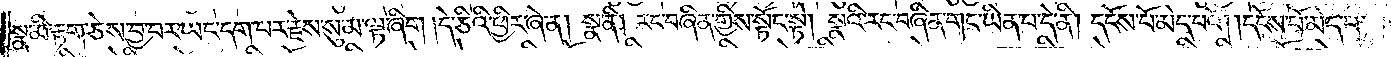སྣ་མི་རྟག་ཅེས་བྱ་བར་ཡང་དག་པར་རྗེས་སུ་མ་ལྟ་ཞིག །དེ་ཅིའི་ཕྱིར་ཞེ་ན། སྣ་ནི། རང་བཞིན་གྱིས་སྟོང་སྟེ། སྣའི་རང་བཞིན་གང་ཡིན་པ་དེ་ནི། དངོས་པོ་མེད་པའོ། །དངོས་པོ་མེད་པ་
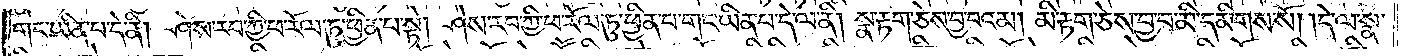གང་ཡིན་པ་དེ་ནི། ཤེས་རབ་ཀྱི་ཕ་རོལ་ཏུ་ཕྱིན་པ་སྟེ། ཤེས་རབ་ཀྱི་ཕ་རོལ་ཏུ་ཕྱིན་པ་གང་ཡིན་པ་དེ་ལ་ནི། སྣ་རྟག་ཅེས་བྱ་བའམ། མི་རྟག་ཅེས་བྱ་བ་མི་དམིགས་སོ། །དེ་ལ་སྣ་
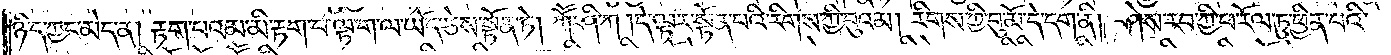ཉིད་ཀྱང་མེད་ན། རྟག་པའམ་མི་རྟག་པ་ལྟ་ག་ལ་ཡོད་ཅེས་སྟོན་ཏེ། ཀཽ་ཤི་ཀ། དེ་ལྟར་སྟོན་པའི་རིགས་ཀྱི་བུའམ། རིགས་ཀྱི་བུ་མོ་དེ་དག་ནི། ཤེས་རབ་ཀྱི་ཕ་རོལ་ཏུ་ཕྱིན་པའི་
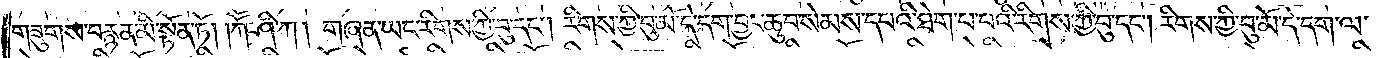གཟུགས་བརྙན་མི་སྟོན་ཏོ། །ཀཽ་ཤི་ཀ། གཞན་ཡང་རིགས་ཀྱི་བུ་དང༌། རིགས་ཀྱི་བུ་མོ་དེ་དག་བྱང་ཆུབ་སེམས་དཔའི་ཐེག་པ་པའི་རིགས་ཀྱི་བུ་དང༌། རིགས་ཀྱི་བུ་མོ་དེ་དག་ལ་
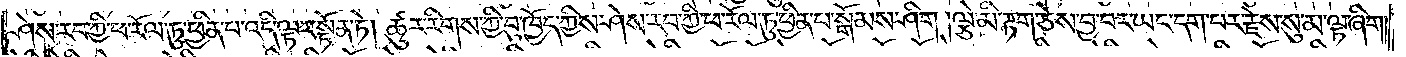ཤེས་རབ་ཀྱི་ཕ་རོལ་ཏུ་ཕྱིན་པ་འདི་ལྟར་སྟོན་ཏེ། ཚུར་རིགས་ཀྱི་བུ་ཁྱོད་ཀྱིས་ཤེས་རབ་ཀྱི་ཕ་རོལ་ཏུ་ཕྱིན་པ་སྒོམས་ཤིག །ལྕེ་མི་རྟག་ཅེས་བྱ་བར་ཡང་དག་པར་རྗེས་སུ་མ་ལྟ་ཞིག།
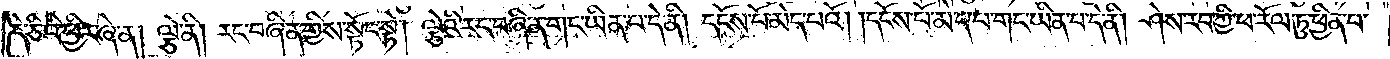དེ་ཅིའི་ཕྱིར་ཞེ་ན། ལྕེ་ནི། རང་བཞིན་གྱིས་སྟོང་སྟེ། ལྕེའི་རང་བཞིན་གང་ཡིན་པ་དེ་ནི། དངོས་པོ་མེད་པའོ། །དངོས་པོ་མེད་པ་གང་ཡིན་པ་དེ་ནི། ཤེས་རབ་ཀྱི་ཕ་རོལ་ཏུ་ཕྱིན་པ་
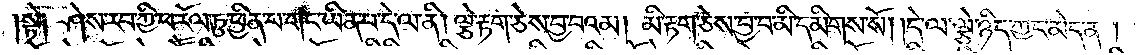སྟེ༑ ཤེས་རབ་ཀྱི་ཕ་རོལ་ཏུ་ཕྱིན་པ་གང་ཡིན་པ་དེ་ལ་ནི། ལྕེ་རྟག་ཅེས་བྱ་བའམ། མི་རྟག་ཅེས་བྱ་བ་མི་དམིགས་སོ། །དེ་ལ་ལྕེ་ཉིད་ཀྱང་མེད་ན།
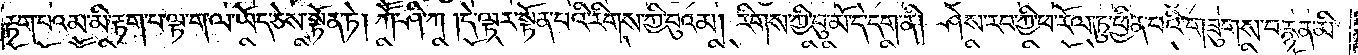རྟག་པའམ་མི་རྟག་པ་ལྟ་ག་ལ་ཡོད་ཅེས་སྟོན་ཏེ། ཀཽ་ཤི་ཀ། དེ་ལྟར་སྟོན་པའི་རིགས་ཀྱི་བུའམ། རིགས་ཀྱི་བུ་མོ་དེ་དག་ནི། ཤེས་རབ་ཀྱི་ཕ་རོལ་ཏུ་ཕྱིན་པའི་གཟུགས་བརྙན་མི་
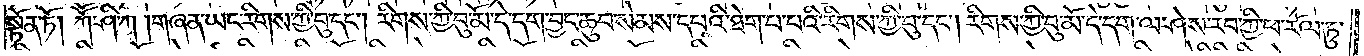སྟོན་ཏོ། །ཀཽ་ཤི་ཀ། གཞན་ཡང་རིགས་ཀྱི་བུ་དང༌། རིགས་ཀྱི་བུ་མོ་དེ་དག་བྱང་ཆུབ་སེམས་དཔའི་ཐེག་པ་པའི་རིགས་ཀྱི་བུ་དང༌། རིགས་ཀྱི་བུ་མོ་དེ་དག་ལ་ཤེས་རབ་ཀྱི་ཕ་རོལ་ཏུ་
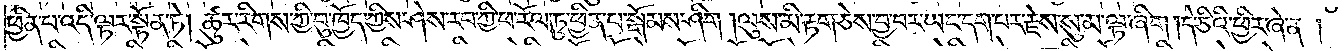ཕྱིན་པ་འདི་ལྟར་སྟོན་ཏེ། ཚུར་རིགས་ཀྱི་བུ་ཁྱོད་ཀྱིས་ཤེས་རབ་ཀྱི་ཕ་རོལ་ཏུ་ཕྱིན་པ་སྒོམས་ཤིག །ལུས་མི་རྟག་ཅེས་བྱ་བར་ཡང་དག་པར་རྗེས་སུ་མ་ལྟ་ཞིག །དེ་ཅིའི་ཕྱིར་ཞེ་ན་།
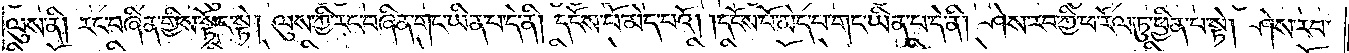ལུས་ནི། རང་བཞིན་གྱིས་སྟོང་སྟེ། ལུས་ཀྱི་རང་བཞིན་གང་ཡིན་པ་དེ་ནི། དངོས་པོ་མེད་པའོ། །དངོས་པོ་མེད་པ་གང་ཡིན་པ་དེ་ནི། ཤེས་རབ་ཀྱི་ཕ་རོལ་ཏུ་ཕྱིན་པ་སྟེ། ཤེས་རབ་
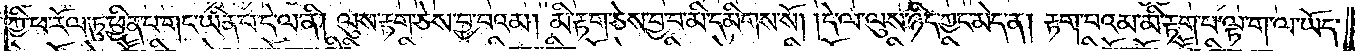ཀྱི་ཕ་རོལ་ཏུ་ཕྱིན་པ་གང་ཡིན་པ་དེ་ལ་ནི། ལུས་རྟག་ཅེས་བྱ་བའམ། མི་རྟག་ཅེས་བྱ་བ་མི་དམིགས་སོ། །དེ་ལ་ལུས་ཉིད་ཀྱང་མེད་ན། རྟག་པའམ་མི་རྟག་པ་ལྟ་ག་ལ་ཡོད་
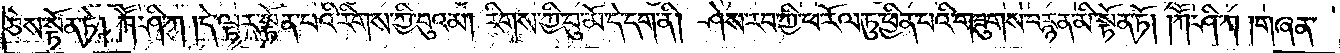ཅེས་སྟོན་ཏེ། ཀཽ་ཤི་ཀ། དེ་ལྟར་སྟོན་པའི་རིགས་ཀྱི་བུའམ། རིགས་ཀྱི་བུ་མོ་དེ་དག་ནི། ཤེས་རབ་ཀྱི་ཕ་རོལ་ཏུ་ཕྱིན་པའི་གཟུགས་བརྙན་མི་སྟོན་ཏོ། །ཀཽ་ཤི་ཀ། གཞན་
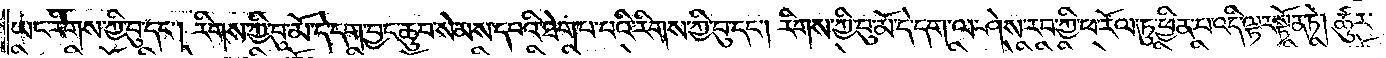ཡང་རིགས་ཀྱི་བུ་དང༌། རིགས་ཀྱི་བུ་མོ་དེ་དག་བྱང་ཆུབ་སེམས་དཔའི་ཐེག་པ་པའི་རིགས་ཀྱི་བུ་དང༌། རིགས་ཀྱི་བུ་མོ་དེ་དག་ལ་ཤེས་རབ་ཀྱི་ཕ་རོལ་ཏུ་ཕྱིན་པ་འདི་ལྟར་སྟོན་ཏེ། ཚུར་
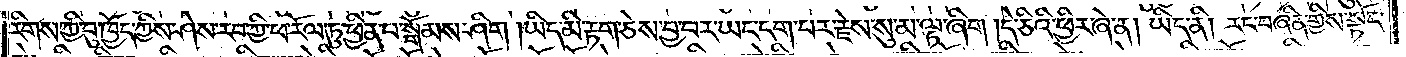རིགས་ཀྱི་བུ་ཁྱོད་ཀྱིས་ཤེས་རབ་ཀྱི་ཕ་རོལ་ཏུ་ཕྱིན་པ་སྒོམས་ཤིག །ཡིད་མི་རྟག་ཅེས་བྱ་བར་ཡང་དག་པར་རྗེས་སུ་མ་ལྟ་ཞིག ། དེ་ཅིའི་ཕྱིར་ཞེ་ན། ཡིད་ནི། རང་བཞིན་གྱིས་སྟོང་
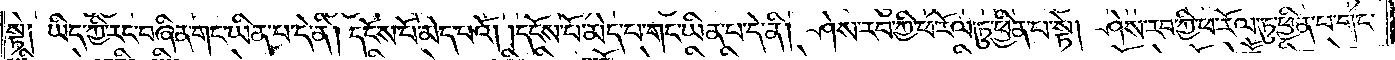སྟེ༑ ཡིད་ཀྱི་རང་བཞིན་གང་ཡིན་པ་དེ་ནི། དངོས་པོ་མེད་པའོ། །དངོས་པོ་མེད་པ་གང་ཡིན་པ་དེ་ནི། ཤེས་རབ་ཀྱི་ཕ་རོལ་ཏུ་ཕྱིན་པ་སྟེ། ཤེས་རབ་ཀྱི་ཕ་རོལ་ཏུ་ཕྱིན་པ་གང་
